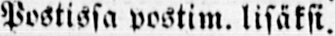Pastissa postim. lisäksi.
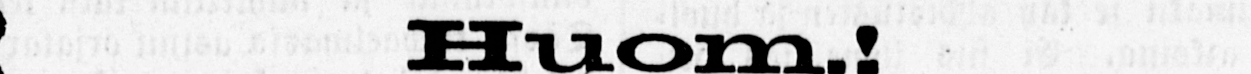Huom.!
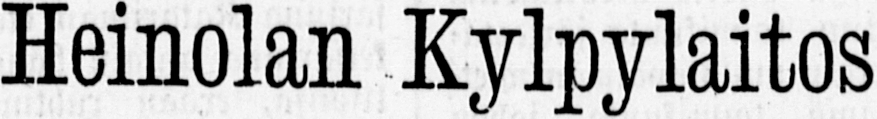Heinolan Kylpylaitos
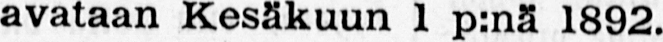avataan Kesäkuun 1 p:nä 1892.
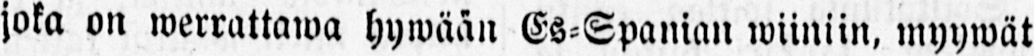joka on werrattawa hywään Es-Spanian wiiniin, myywät
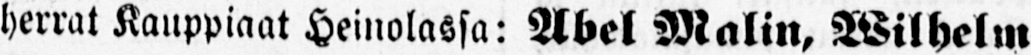herrat Kauppiaat Heinolassa: Abel Malin, Wilhelm
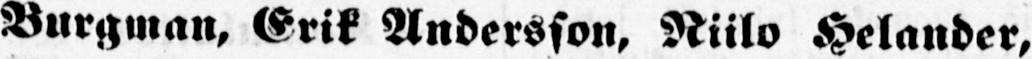Burgman, Erik Andersson, Niilo Helander,
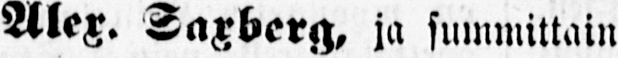Alex. Saxberg, ja summittain
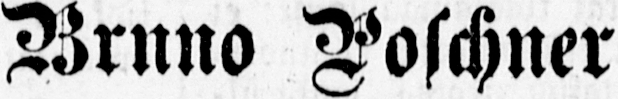Brnno Poschner
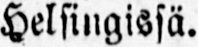Helsingissä.
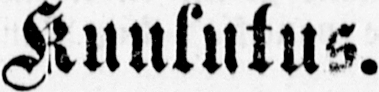Kuulutus.
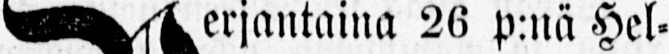Perjantaina 26 p:nä Hel-
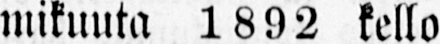mikuuta 1892 tollo
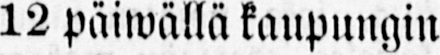12 päiwällä kaupungin
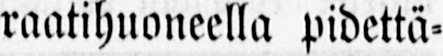raatihuoneella pidettä-
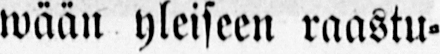wään yleiseen raastu-
